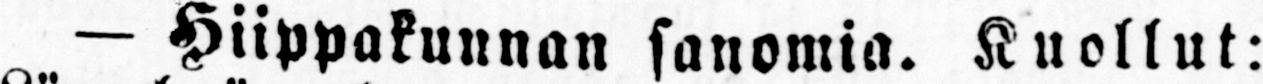- Hiippakunnan sanomia. Kuollut:
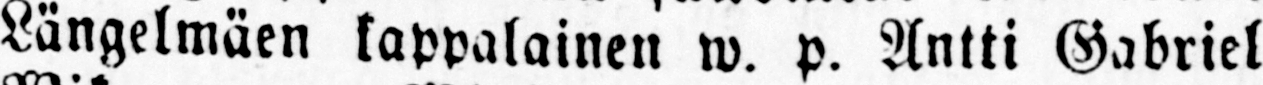Längelmäen kappalainen w. p. Antti Gabriel
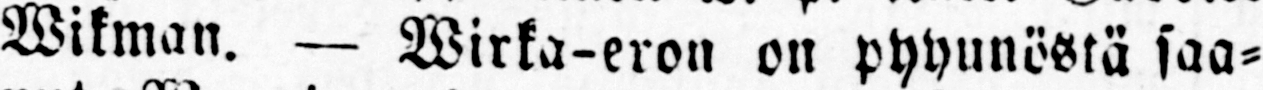Wikman. — Wirka-eron on pyynnöstä saa-
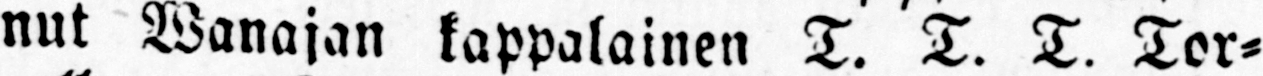nut Wanajan kappalainen T. T. T. Tor-
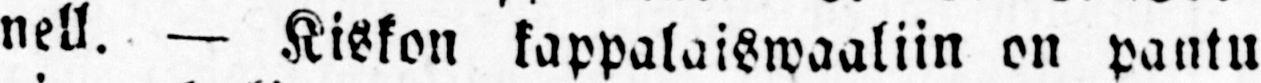nell. — Kiskon kappalaiswaaliin on pantu
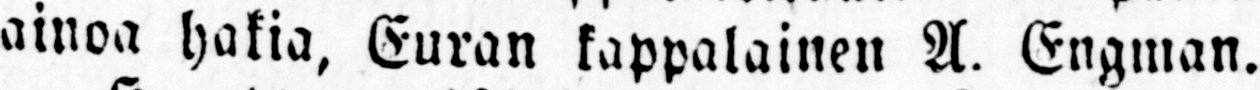ainoa hakia, Euran kappalainen A. Engman.
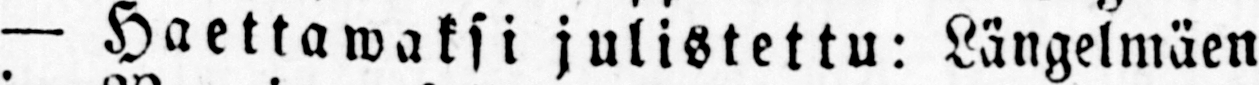— Haet tawaksi julistettu: Längelmäen
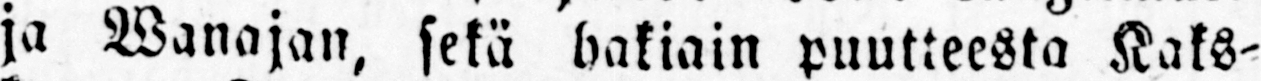ja Wanajan, sekä hakiain puutteesta Kaks-
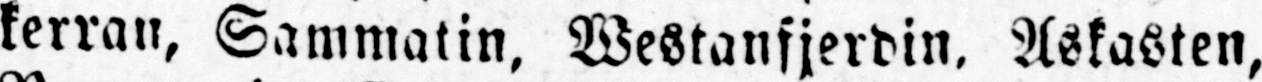kerran, Sammatin, Westanfjerdin, Askasten,
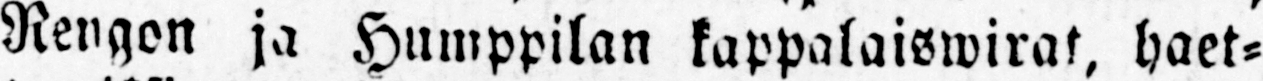Rengon ja Humppilan kappalaiswirat, haet-
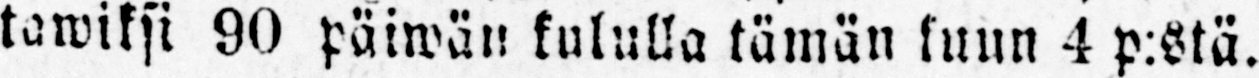tawiksi 90 päiwän kululla tämän kuun 4 p:stä.
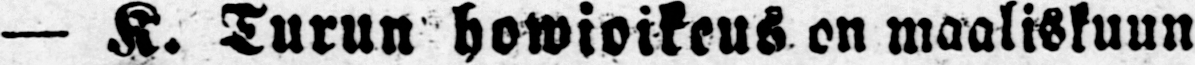— K. Turun howioikeus on maaliskuun
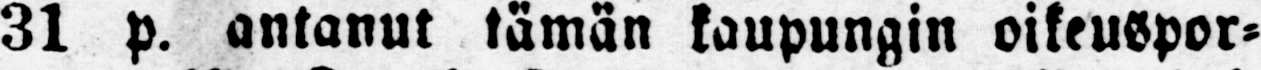31 p. antanut tämän kaupungin oikeuspor-
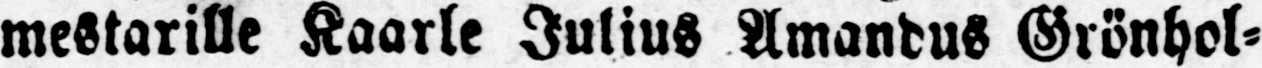mestarille Kaarle Julius Amandus Grönhol-
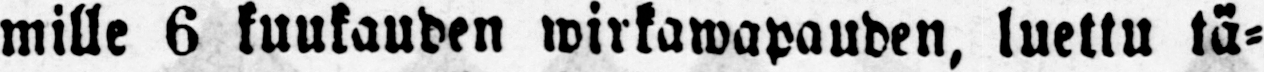mille 6 kuukauden wirkawapauden, luettu tä-
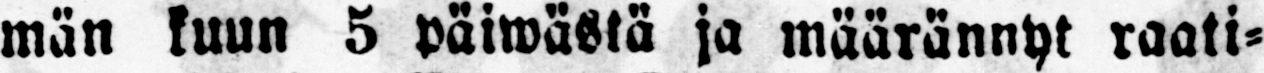män kuun 5 päiwästä ja määrännyt raati-
